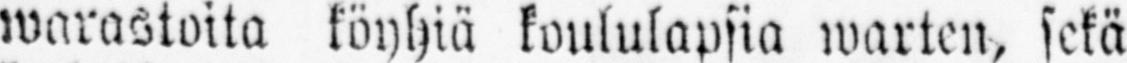warastoita köyhiä koululapsia warten, sekä
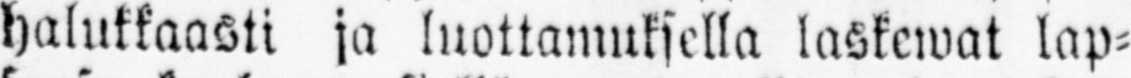halukkaasti ja luottamuksella laskewat lap-
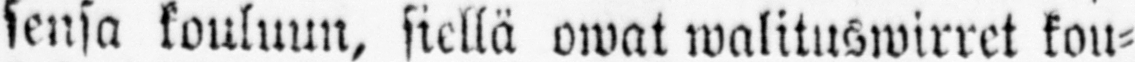sensa kouluun, siellä owat walituswirret kou-
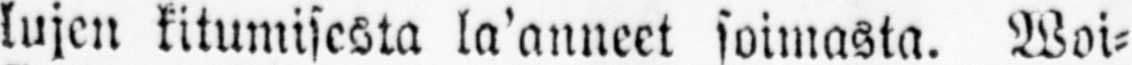lujen kitumisesta la'anneet soimasta. Woi-
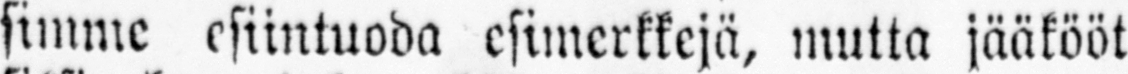simme esiintuoda esimerkkejä, mutta jääkööt
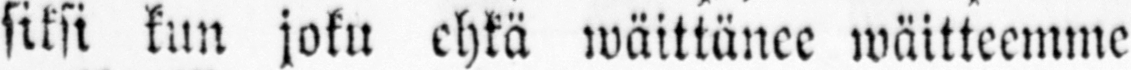siksi kun joku ehkä wäittänee wäitteemme
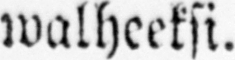walheeksi.
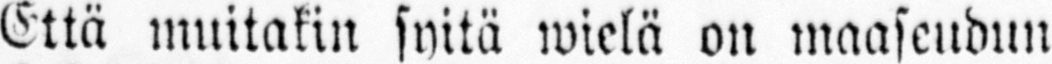Että muitakin syitä wielä on maaseudun
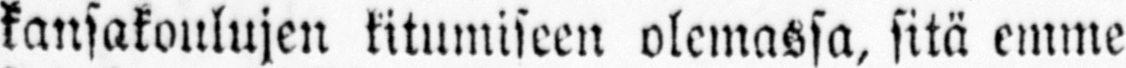kansakoulujen kitumiseen olemassa, sitä emme
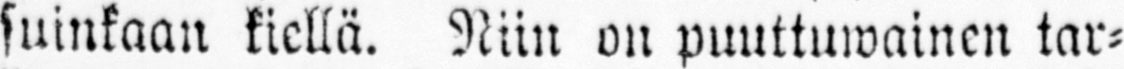suinkaan kiellä. Niin on puuttuwainen tar-
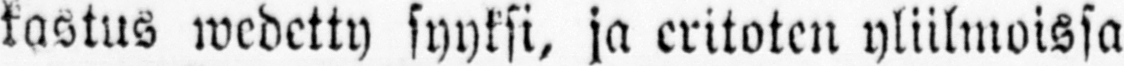kastus wedetty syyksi, ja eritoten yliilmoissa
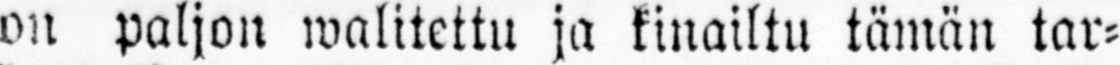on paljon walitettu ja kinailtu tämän tar-
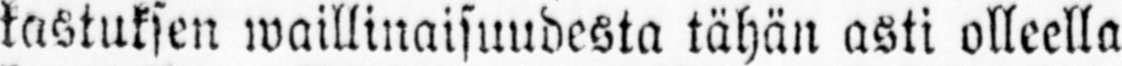kastuksen waillinaisuudesta tähän asti olleella
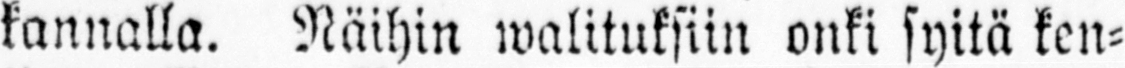kannalla. Näihin walituksiin onki syitä ken-
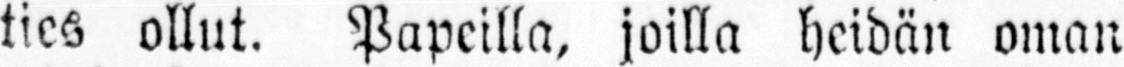ties ollut. Papeilla, joilla heidän oman
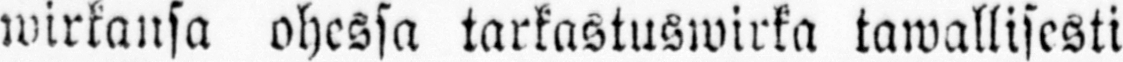wirkansa ohessa tarkastuswirka tawallisesti
